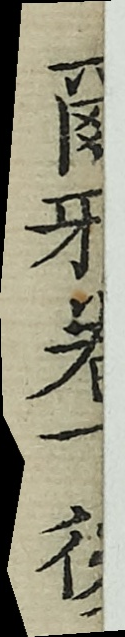爾雅卷下後
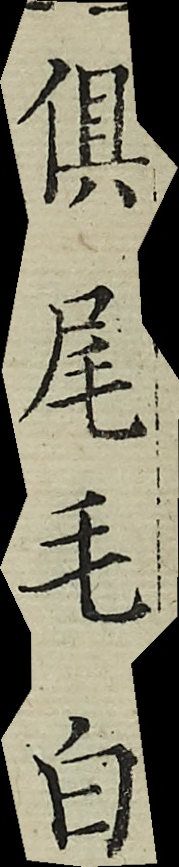俱尾毛白
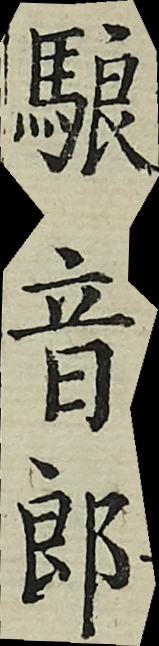馺音郎
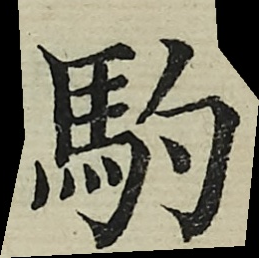馰
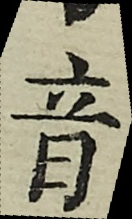音
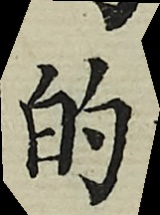的
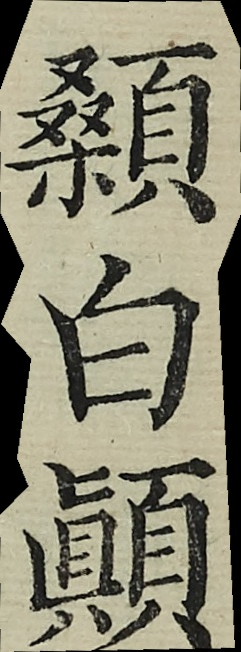顙白顛
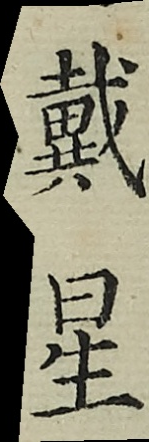戴星
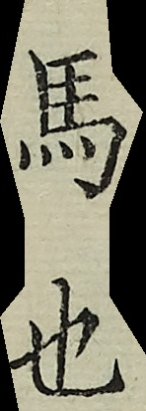馬也
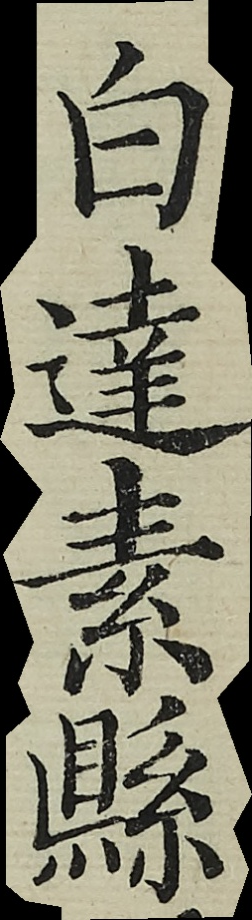白達素縣
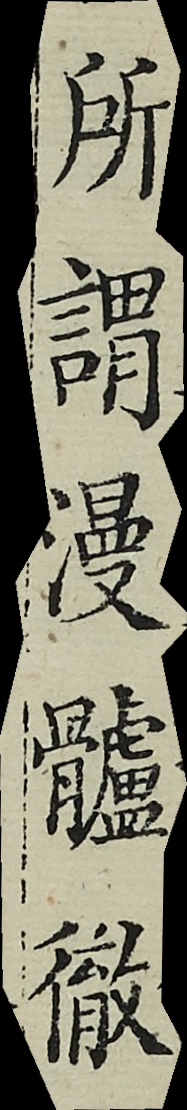所謂漫髗徹
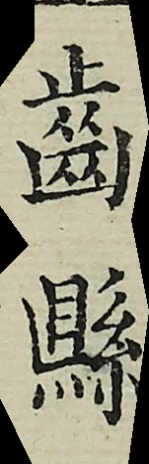齒縣
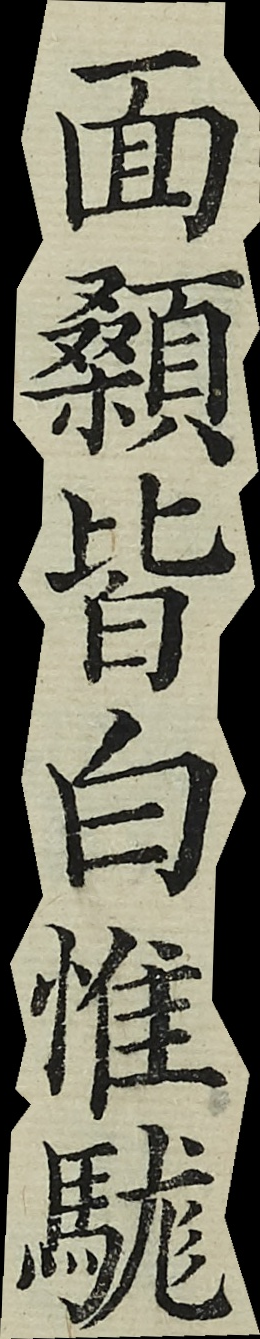面顙皆白惟駹
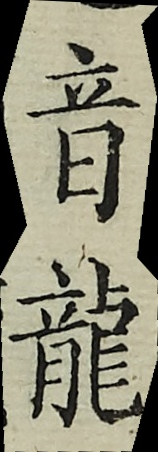音龍
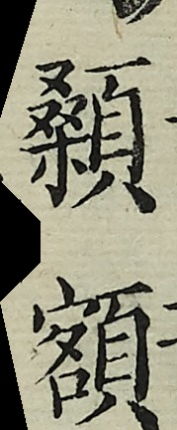顙額
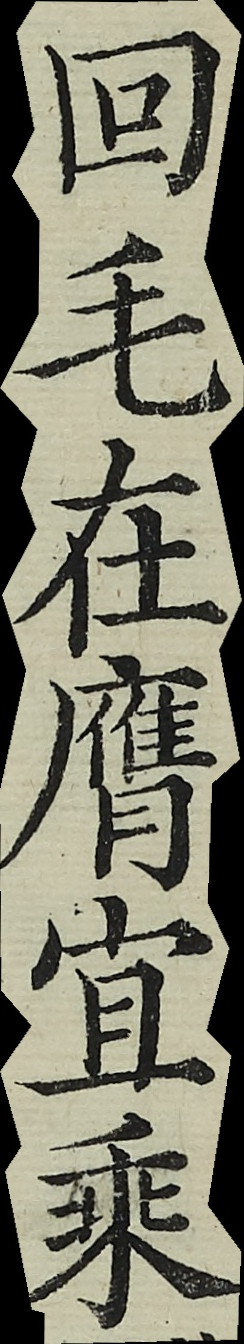回毛在膺宜乘
